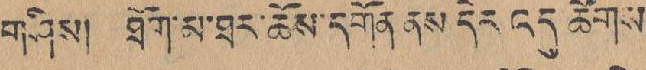གཤིས། ཐོག་མ་ཐར་ཆོས་དགོན ནས དེར འདུ ཚོགས་
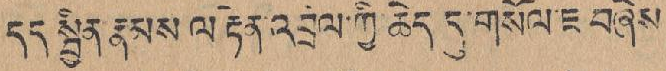དད སྦྱིན་རྣམས ལ རྟེན་འབྲལ་ཀྱི་ཆེད་དུ་གསོལ་ཇ བཞེས་
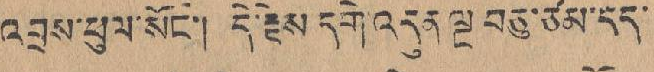འབྲས་ཕུལ་སོང་། དེ་རྗེས་དགེ་འདུན ལྔ བཅུ་ཙམ་དད་
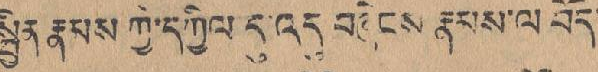སྦྱིན་རྣམས་ཀྱི་དཀྱིལ དུ་འདུ བཞེངས་རྣམས་ལ བོད་
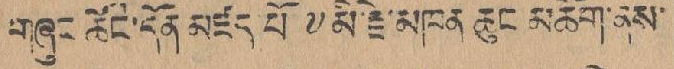གཞུང ཚོང་དོན་མཛོད་པོ་༸མི་རྗེ་མཁན ཆུང མཆོག་ནས་
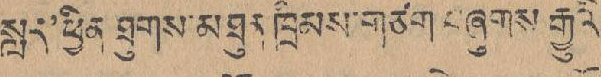སླར'ཕྱིན ཐུགས་མཐུན ཁྲིམས་གཙག བཞུགས རྒྱུའི་
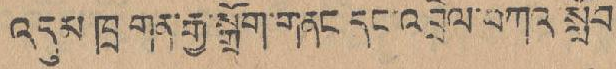འདུམ་ཁྲ གན་རྒྱ་སྒྲོག་གནང དང་འབྲེལ་བཀའ སློབ་
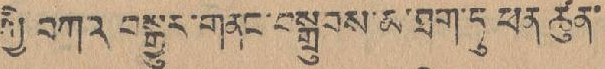ཀྱི བཀའ བསྒྱུར་གནང་བསྒྲུབས་མ་ཐག་ཏུ་ཕན ཚུན་
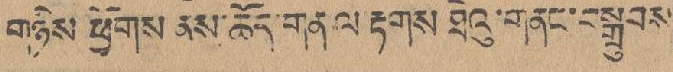གཉིས ཕྱོགས ནས་ཆོད་གནལ རྟགས་ཐེའུ་གནང་བསྒྲུབས་
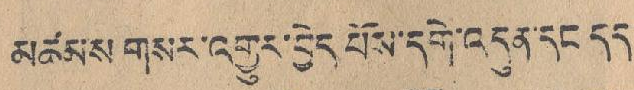མཚམས གསར་འགྱུར་བྱེད པོས་དགེ་འདུན་དང དད་
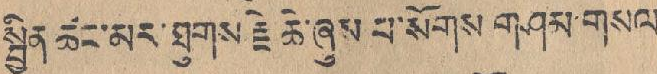སྤྱིན ཚང་མར་ཐུགས་རྗེ ཆེ་ཞུས་པ་སོགས གཤམ་གསལ
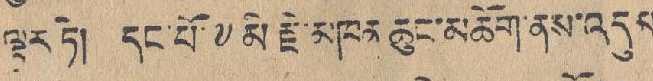ལྟར་ཏེ། དང་པོ་༸མི་རྗེ་མཁན་ཆུང་མཆོག་ནས་འདུམ་
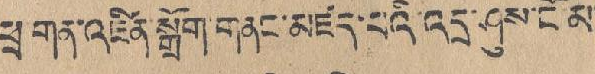ཕྲ གན་འཛིན་སྒྲོག་གནང་མཛད་པའི་འདྲ་ཤུས་ངོ མ་
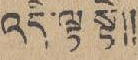འདི་ལྟ་སྟེ།།
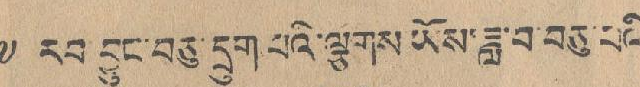༸ རབ བྱུང་བཅུ་དྲུག་པའི་ལྕགས་ཡོས་ཟླ་བ་བཅུ་པའི་
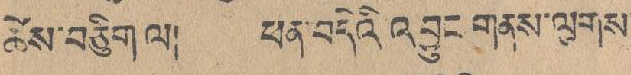ཆེས་བཅིུག ལ། ཕན་བདེའི་འབྱུང གནས་ལུགས་
